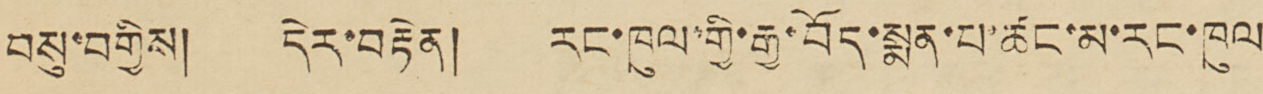བསུ་བགྱིས། དེར་བརྟེན། རང་ཁུལ་གྱི་རྒྱ་བོད་སྨན་པ་ཚང་མ་རང་ཁུལ
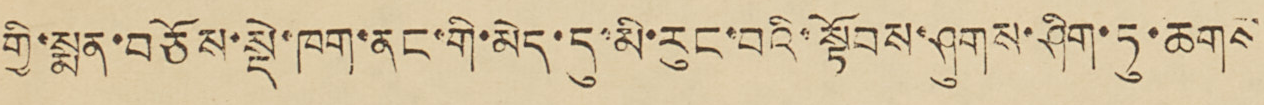གྱི་སྨན་བཅོས་སྡེ་ཁག་ནང་གི་མེད་དུ་མི་རུང་བའི་སྟོབས་ཤུགས་ཤིག་ཏུ་ཆགས
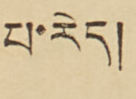པ་རེད།
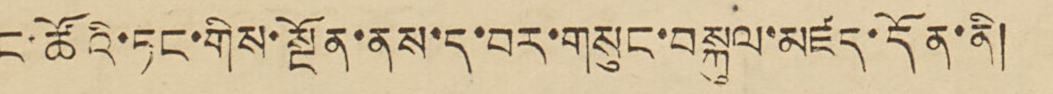ང་ཚོའི་ཏང་གིས་སྔོན་ནས་ད་བར་གསུང་བསྐུལ་མཛད་དོན་ནི།
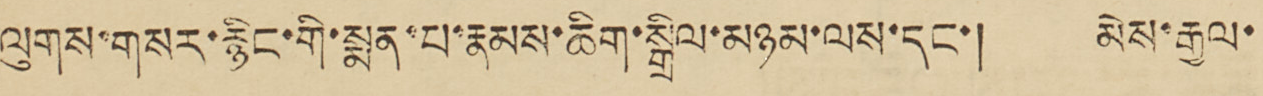ལུགས་གསར་རྙིང་གི་སྨན་པ་རྣམས་ཆིག་སྒྲིལ་མཉམ་ལས་དང་། མེས་རྒྱལ་
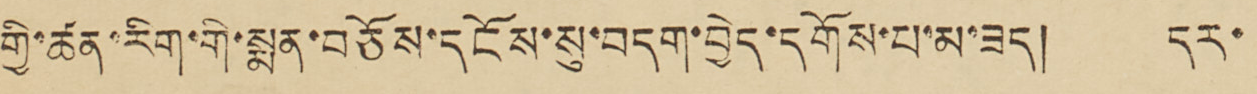གྱི་ཚན་རིག་གི་སྨན་བཅོས་དངོས་སུ་བདག་བྱེད་དགོས་པ་མ་ཟད། དར་
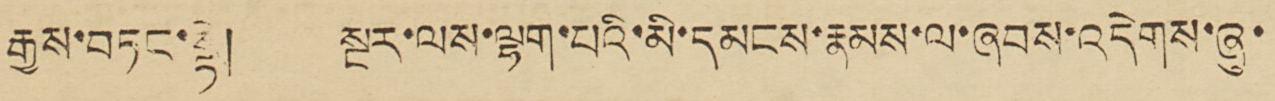རྒྱས་བཏང་སྟེ། སྔར་ལས་ལྷག་པའི་མི་དམངས་རྣམས་ལ་ཞབས་འདེགས་ཞུ་
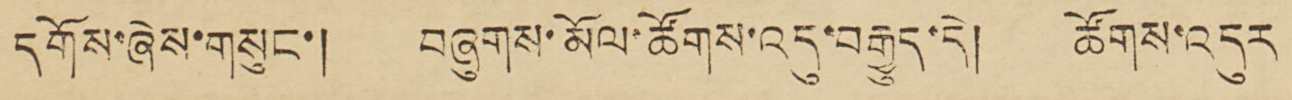དགོས་ཞེས་གསུང་། བཞུགས་མོལ་ཚོགས་འདུ་བརྒྱུད་དེ། ཚོགས་འདུར
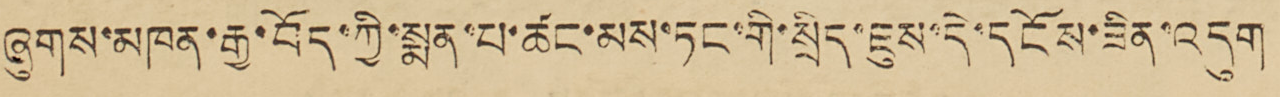ཞུགས་མཁན་རྒྱ་བོད་ཀྱི་སྨན་པ་ཚང་མས་ཏང་གི་སྲིད་ཇུས་དེ་དངོས་ཟིན་འདུག
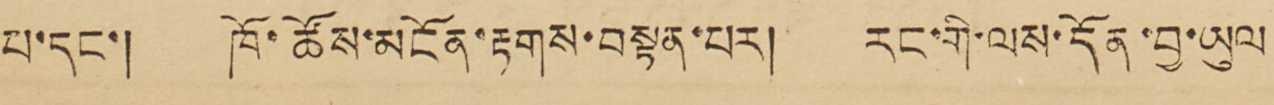པ་དང་། ཁོ་ཚོས་མངོན་རྟགས་བསྟན་པར། རང་གི་ལས་དོན་བྱ་ཡུལ
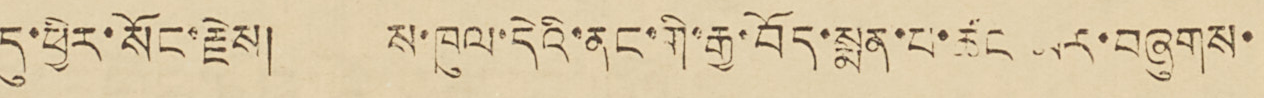དུ་ཕྱིར་སོང་རྗེས། ས་ཁུལ་དེའི་ནང་གི་རྒྱ་བོད་སྨན་པ་ཚང་མར་བཞུགས་
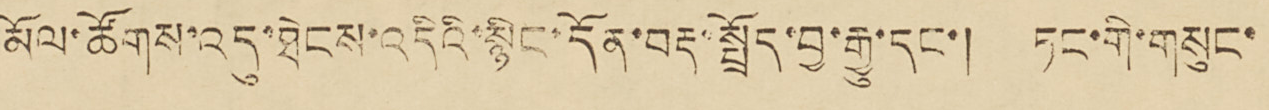མོལ་ཚོགས་འདུ་ཐེངས་འདིའི་སྙིང་དོན་བརྡ་སྤྲོད་བྱ་རྒྱུ་དང་། ཏང་གི་གསུང་
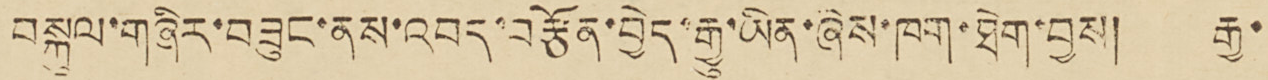བསྐུལ་གཞིར་བཟུང་ནས་འབད་བརྩོན་བྱེད་རྒྱུ་ཡིན་ཞེས་ཁག་ཐེག་བྱས། རྒྱ་
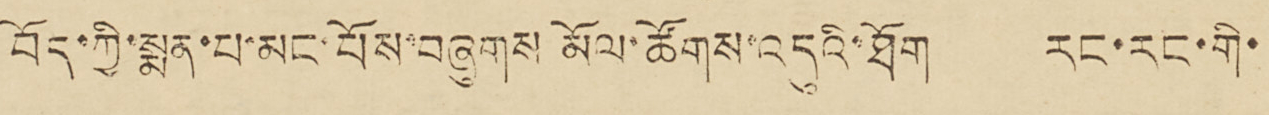བོད་ཀྱི་སྨན་པ་མང་པོས་བཞུགས མོལ་ཚོགས་འདུའི་ཐོག རང་རང་གི་
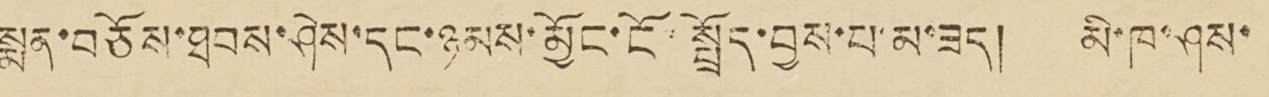སྨན་བཅོས་ཐབས་ཤེས་དང་ཉམས་མྱོང་ངོ་སྤྲོད་བྱས་པ་མ་ཟད། མི་ཁ་ཤས་
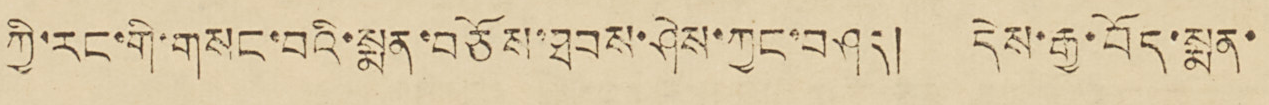ཀྱི་རང་གི་གསང་བའི་སྨན་བཅོས་ཐབས་ཤེས་ཀྱང་བཤད། དེས་རྒྱ་བོད་སྨན་
